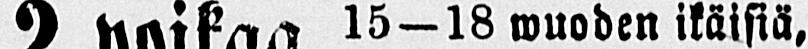2 Poikaa 15 -18 wuoden ikäisiä,
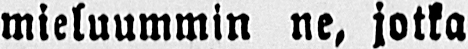mieluummin ne, jotka
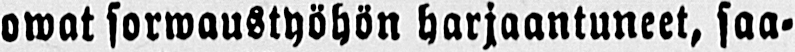owat sorwausthöhön harjaantuneet, saa-
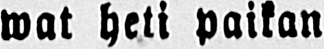wat heti paikan
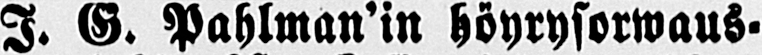I. G. Pahlman'in höyrysowaus-
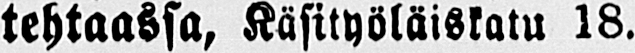tehtaassa, Käsityöläiskatu 18.
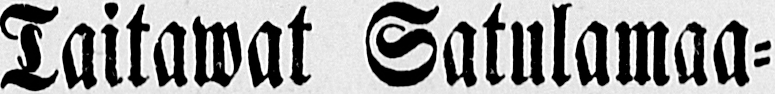Taitawat Satulamaa-
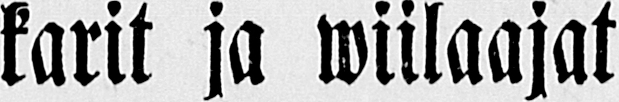karit ja wiilaajat
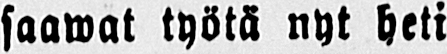saawat työtä nyt heti
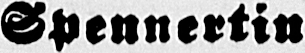Spennertin
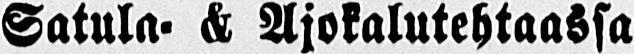Satula- & Ajokalutehtaassa
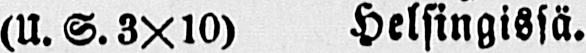(U. S.3X10) Helsingissä.
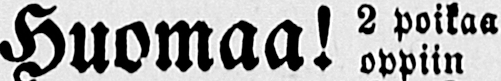Huomaa! 2 poikaa otetaan leipurin-
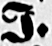oppiin.
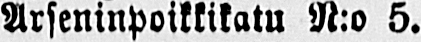Arseninpoikkikatu N:o 5.
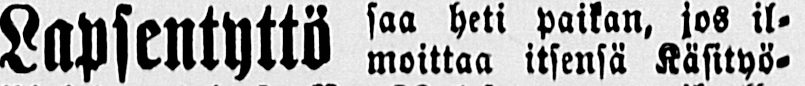Lapsentyttö saa heti paikan, jos il-
